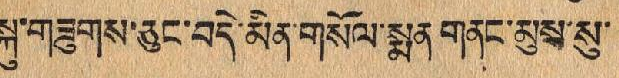སྐུ་གཟུགས་ཅུང་བདེ་མིན་གསོལ་སྨན་གནང་མུས་སུ་
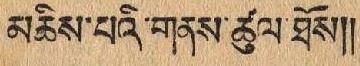མཆིས་པའི་གནས་ཚུལ་ཐོས།།
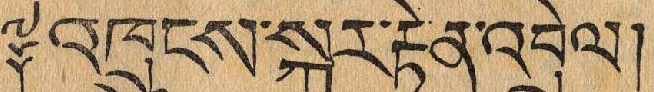༈ འཁྲུངས་སྐར་རྟེན་འབྲེལ།
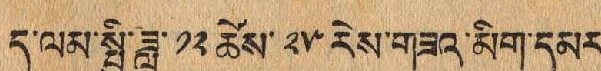ད་ལམ་སྤྱི་ཟླ་ ༡༢ ཚེས་ ༢༥ རེས་གཟའ་མིག་དམར་
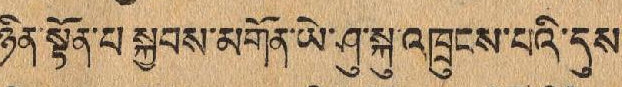ཉིན་སྟོན་པ་སྐྱབས་མགོན་ཡེ་ཤུ་སྐུ་འཁྲུངས་པའི་དུས་
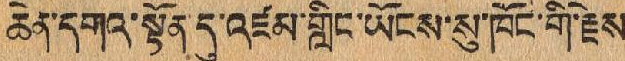ཆེན་དགའ་སྟོན་དུ་འཛམ་གླིང་ཡོངས་སུ་ཁོང་གི་རྗེས་
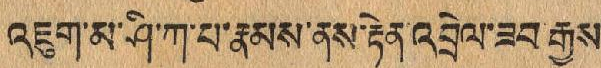འཇུག་མ་ཤི་ཀ་པ་རྣམས་ནས་རྟེན་འབྲེལ་ཟབ་རྒྱས་
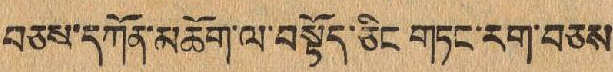བཅས་དཀོན་མཆོག་ལ་བསྟོད་ཅིང་གཏང་རག་བཅས་
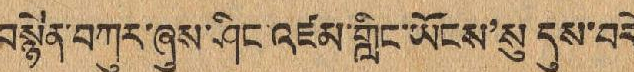བསྙེན་བཀུར་ཞུས་ཤིང་འཛམ་གླིང་ཡོངས'སུ་དུས་བདེ་
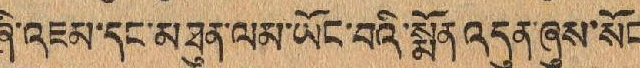ཞི་འཇམ་དང་མཐུན་ལམ་ཡོང་བའི་སྨོན་འདུན་ཞུས་སོང་
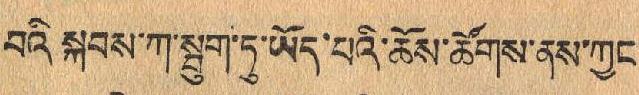བའི་སྐབས་ཀ་སྦུག་ཏུ་ཡོད་པའི་ཆོས་ཚོགས་ནས་ཀྱང་
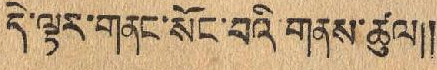དེ་ལྟར་གནང་སོང་བའི་གནས་ཚུལ།།
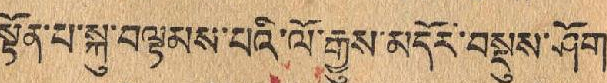སྟོན་པ་སྐུ་བལྟམས་པའི་ལོ་རྒྱུས་མདོར་བསྡུས་ཤོག་
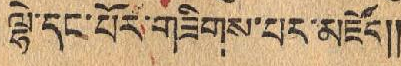ལྷེ་དང་པོར་གཟིགས་པར་མཛོང།།
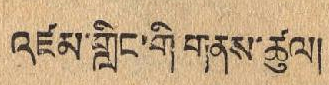འཛམ་གླིང་གི་གནས་ཚུལ།
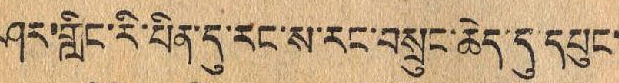ཤར་གླིང་རི་པིན་དུ་རང་ས་རང་བསྲུང་ཆེད་དུ་དཔུང་
